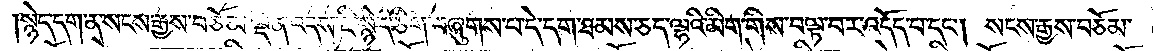སྙེད་དག་ན་སངས་རྒྱས་བཅོམ་ལྡན་འདས་ཇི་སྙེད་ཅིག་བཞུགས་པ་དེ་དག་ཐམས་ཅད་ལྷའི་མིག་གིས་བལྟ་བར་འདོད་པ་དང༌། སངས་རྒྱས་བཅོམ་
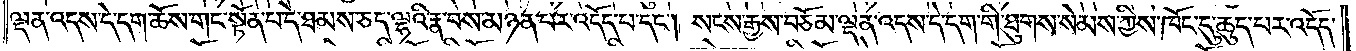ལྡན་འདས་དེ་དག་ཆོས་གང་སྟོན་པ་དེ་ཐམས་ཅད་ལྷའི་རྣ་བས་མཉན་པར་འདོད་པ་དང༌། སངས་རྒྱས་བཅོམ་ལྡན་འདས་དེ་དག་གི་ཐུགས་སེམས་ཀྱིས་ཁོང་དུ་ཆུད་པར་འདོད་
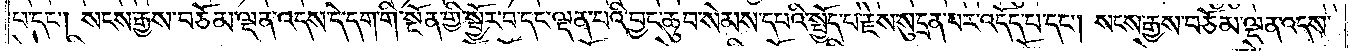པ་དང༌། སངས་རྒྱས་བཅོམ་ལྡན་འདས་དེ་དག་གི་སྔོན་གྱི་སྦྱོར་བ་དང་ལྡན་པའི་བྱང་ཆུབ་སེམས་དཔའི་སྤྱོད་པ་རྗེས་སུ་དྲན་པར་འདོད་པ་དང༌། སངས་རྒྱས་བཅོམ་ལྡན་འདས་
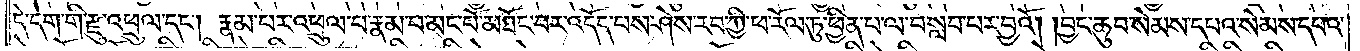དེ་དག་གི་རྫུ་འཕྲུལ་དང༌། རྣམ་པར་འཕྲུལ་པ་རྣམ་པ་མང་པོ་མཐོང་བར་འདོད་པས་ཤེས་རབ་ཀྱི་ཕ་རོལ་ཏུ་ཕྱིན་པ་ལ་བསླབ་པར་བྱའོ། །བྱང་ཆུབ་སེམས་དཔའ་སེམས་དཔའ་
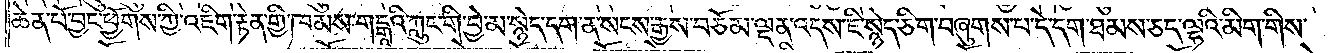ཆེན་པོ་བྱང་ཕྱོགས་ཀྱི་འཇིག་རྟེན་གྱི་ཁམས་གངྒཱའི་ཀླུང་གི་བྱེ་མ་སྙེད་དག་ན་སངས་རྒྱས་བཅོམ་ལྡན་འདས་ཇི་སྙེད་ཅིག་བཞུགས་པ་དེ་དག་ཐམས་ཅད་ལྷའི་མིག་གིས་
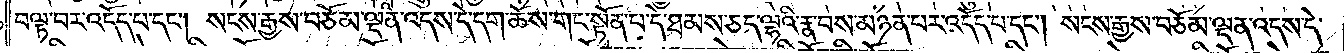བལྟ་བར་འདོད་པ་དང༌། སངས་རྒྱས་བཅོམ་ལྡན་འདས་དེ་དག་ཆོས་གང་སྟོན་པ་དེ་ཐམས་ཅད་ལྷའི་རྣ་བས་མཉན་པར་འདོད་པ་དང༌། སངས་རྒྱས་བཅོམ་ལྡན་འདས་དེ་
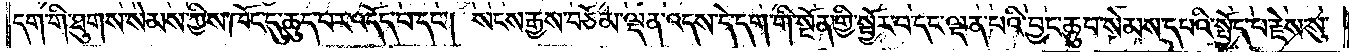དག་གི་ཐུགས་སེམས་ཀྱིས་ཁོང་དུ་ཆུད་པར་འདོད་པ་དང༌། སངས་རྒྱས་བཅོམ་ལྡན་འདས་དེ་དག་གི་སྔོན་གྱི་སྦྱོར་བ་དང་ལྡན་པའི་བྱང་ཆུབ་སེམས་དཔའི་སྤྱོད་པ་རྗེས་སུ་
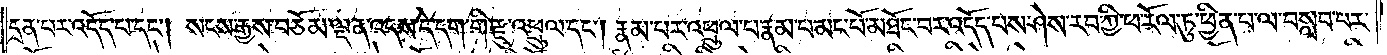དྲན་པར་འདོད་པ་དང༌། སངས་རྒྱས་བཅོམ་ལྡན་འདས་དེ་དག་གི་རྫུ་འཕྲུལ་དང༌། རྣམ་པར་འཕྲུལ་པ་རྣམ་པ་མང་པོ་མཐོང་བར་འདོད་པས་ཤེས་རབ་ཀྱི་ཕ་རོལ་ཏུ་ཕྱིན་པ་ལ་བསླབ་པར་
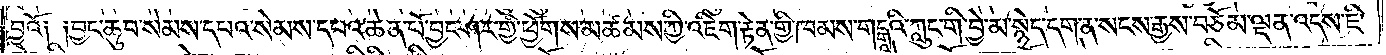བྱའོ༑ ༑བྱང་ཆུབ་སེམས་དཔའ་སེམས་དཔའ་ཆེན་པོ་བྱང་ཤར་གྱི་ཕྱོགས་མཚམས་ཀྱི་འཇིག་རྟེན་གྱི་ཁམས་གངྒཱའི་ཀླུང་གི་བྱེ་མ་སྙེད་དག་ན་སངས་རྒྱས་བཅོམ་ལྡན་འདས་ཇི་
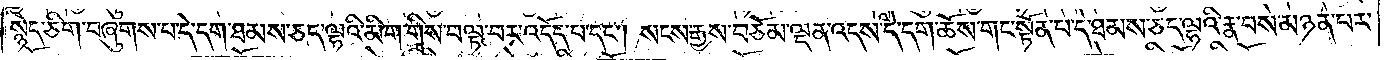སྙེད་ཅིག་བཞུགས་པ་དེ་དག་ཐམས་ཅད་ལྷའི་མིག་གིས་བལྟ་བར་འདོད་པ་དང༌། སངས་རྒྱས་བཅོམ་ལྡན་འདས་དེ་དག་ཆོས་གང་སྟོན་པ་དེ་ཐམས་ཅད་ལྷའི་རྣ་བས་མཉན་པར་
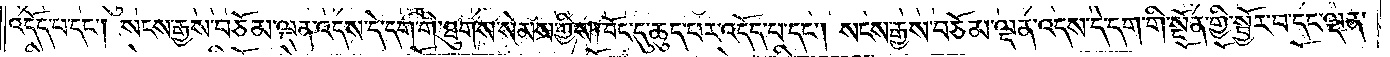འདོད་པ་དང༌། སངས་རྒྱས་བཅོམ་ལྡན་འདས་དེ་དག་གི་ཐུགས་སེམས་ཀྱིས་ཁོང་དུ་ཆུད་པར་འདོད་པ་དང༌། སངས་རྒྱས་བཅོམ་ལྡན་འདས་དེ་དག་གི་སྔོན་གྱི་སྦྱོར་བ་དང་ལྡན་
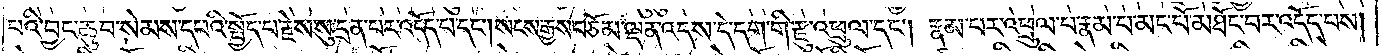པའི་བྱང་ཆུབ་སེམས་དཔའི་སྤྱོད་པ་རྗེས་སུ་དྲན་པར་འདོད་པ་དང༌། སངས་རྒྱས་བཅོམ་ལྡན་འདས་དེ་དག་གི་རྫུ་འཕྲུལ་དང༌། རྣམ་པར་འཕྲུལ་པ་རྣམ་པ་མང་པོ་མཐོང་བར་འདོད་པས།
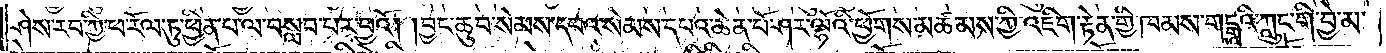ཤེས་རབ་ཀྱི་ཕ་རོལ་ཏུ་ཕྱིན་པ་ལ་བསླབ་པར་བྱའོ། །བྱང་ཆུབ་སེམས་དཔའ་སེམས་དཔའ་ཆེན་པོ་ཤར་ལྷོའི་ཕྱོགས་མཚམས་ཀྱི་འཇིག་རྟེན་གྱི་ཁམས་གངྒཱའི་ཀླུང་གི་བྱེ་མ་
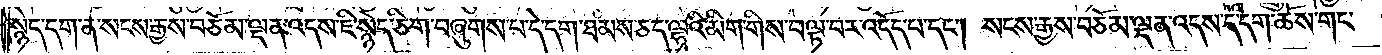སྙེད་དག་ན་སངས་རྒྱས་བཅོམ་ལྡན་འདས་ཇི་སྙེད་ཅིག་བཞུགས་པ་དེ་དག་ཐམས་ཅད་ལྷའི་མིག་གིས་བལྟ་བར་འདོད་པ་དང༌། སངས་རྒྱས་བཅོམ་ལྡན་འདས་དེ་དག་ཆོས་གང་
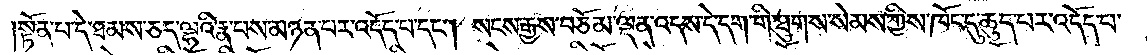སྟོན་པ་དེ་ཐམས་ཅད་ལྷའི་རྣ་བས་མཉན་པར་འདོད་པ་དང༌། སངས་རྒྱས་བཅོམ་ལྡན་འདས་དེ་དག་གི་ཐུགས་སེམས་ཀྱིས་ཁོང་དུ་ཆུད་པར་འདོད་པ་
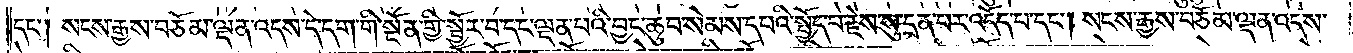དང༌། སངས་རྒྱས་བཅོམ་ལྡན་འདས་དེ་དག་གི་སྔོན་གྱི་སྦྱོར་བ་དང་ལྡན་པའི་བྱང་ཆུབ་སེམས་དཔའི་སྤྱོད་པ་རྗེས་སུ་དྲན་པར་འདོད་པ་དང༌། སངས་རྒྱས་བཅོམ་ལྡན་འདས་
